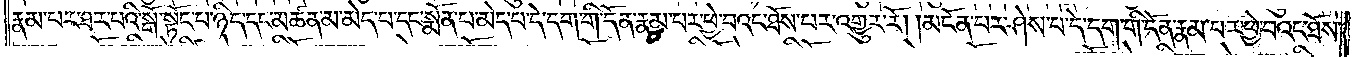རྣམ་པར་ཐར་པའི་སྒོ་སྟོང་པ་ཉིད་དང་མཚན་མ་མེད་པ་དང་སྨོན་པ་མེད་པ་དེ་དག་གི་དོན་རྣམ་པར་ཕྱེ་བའང་ཐོས་པར་འགྱུར་རོ། །མངོན་པར་ཤེས་པ་དེ་དག་གི་དོན་རྣམ་པར་ཕྱེ་བའང་ཐོས་
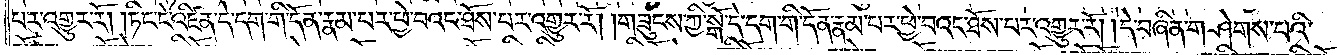པར་འགྱུར་རོ། །ཏིང་ངེ་འཛིན་དེ་དག་གི་དོན་རྣམ་པར་ཕྱེ་བའང་ཐོས་པར་འགྱུར་རོ། །གཟུངས་ཀྱི་སྒོ་དེ་དག་གི་དོན་རྣམ་པར་ཕྱེ་བའང་ཐོས་པར་འགྱུར་རོ། །དེ་བཞིན་གཤེགས་པའི་
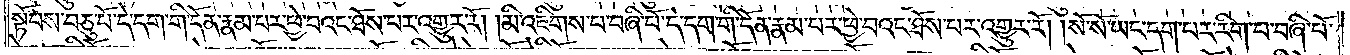སྟོབས་བཅུ་པོ་དེ་དག་གི་དོན་རྣམ་པར་ཕྱེ་བའང་ཐོས་པར་འགྱུར་རོ། །མི་འཇིགས་པ་བཞི་པོ་དེ་དག་གི་དོན་རྣམ་པར་ཕྱེ་བའང་ཐོས་པར་འགྱུར་རོ། །སོ་སོ་ཡང་དག་པར་རིག་པ་བཞི་པོ་
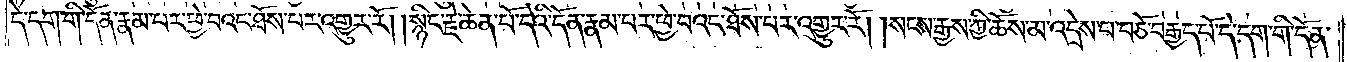དེ་དག་གི་དོན་རྣམ་པར་ཕྱེ་བའང་ཐོས་པར་འགྱུར་རོ། །སྙིང་རྗེ་ཆེན་པོ་དེའི་དོན་རྣམ་པར་ཕྱེ་བའང་ཐོས་པར་འགྱུར་རོ། །སངས་རྒྱས་ཀྱི་ཆོས་མ་འདྲེས་པ་བཅོ་བརྒྱད་པོ་དེ་དག་གི་དོན་
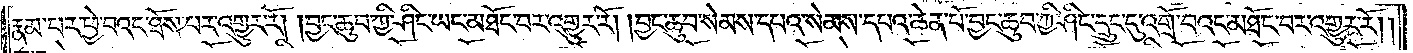རྣམ་པར་ཕྱེ་བའང་ཐོས་པར་འགྱུར་རོ། །བྱང་ཆུབ་ཀྱི་ཤིང་ཡང་མཐོང་བར་འགྱུར་རོ། །བྱང་ཆུབ་སེམས་དཔའ་སེམས་དཔའ་ཆེན་པོ་བྱང་ཆུབ་ཀྱི་ཤིང་དྲུང་དུ་འགྲོ་བའང་མཐོང་བར་འགྱུར་རོ། །
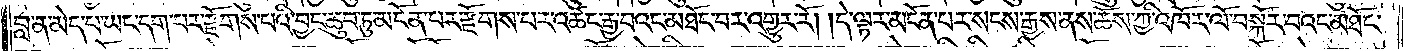བླ་ན་མེད་པ་ཡང་དག་པར་རྫོགས་པའི་བྱང་ཆུབ་ཏུ་མངོན་པར་རྫོགས་པར་འཚང་རྒྱ་བའང་མཐོང་བར་འགྱུར་རོ། །དེ་ལྟར་མངོན་པར་སངས་རྒྱས་ནས་ཆོས་ཀྱི་འཁོར་ལོ་བསྐོར་བའང་མཐོང་
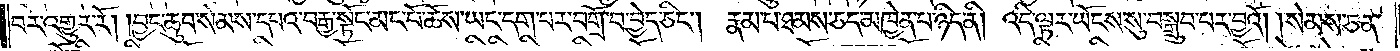བར་འགྱུར་རོ། །བྱང་ཆུབ་སེམས་དཔའ་བརྒྱ་སྟོང་མང་པོ་ཆོས་ཡང་དག་པར་བགྲོ་བར་བྱེད་ཅིང༌། རྣམ་པ་ཐམས་ཅད་མཁྱེན་པ་ཉིད་ནི་འདི་ལྟར་ཡོངས་སུ་བསྒྲུབ་པར་བྱའོ། །སེམས་ཅན་
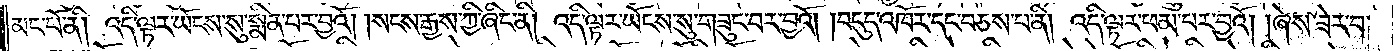མང་པོ་ནི། འདི་ལྟར་ཡོངས་སུ་སྨིན་པར་བྱའོ། སངས་རྒྱས་ཀྱི་ཞིང་ནི། འདི་ལྟར་ཡོངས་སུ་བཟུང་བར་བྱའོ། །བདུད་འཁོར་དང་བཅས་པ་ནི། འདི་ལྟར་ཕམ་པར་བྱའོ། །ཞེས་ཟེར་བ་
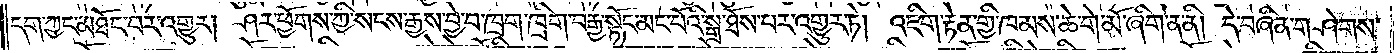དག་ཀྱང་མཐོང་བར་འགྱུར། ཤར་ཕྱོགས་ཀྱི་སངས་རྒྱས་བྱེ་བ་ཁྲག་ཁྲིག་བརྒྱ་སྟོང་མང་པོའི་སྒྲ་ཐོས་པར་འགྱུར་ཏེ། འཇིག་རྟེན་གྱི་ཁམས་ཆེ་གེ་མོ་ཞིག་ན་ནི། དེ་བཞིན་གཤེགས་
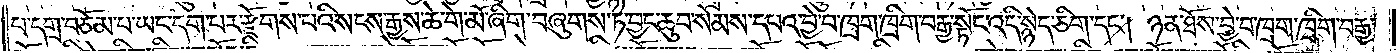པ་དགྲ་བཅོམ་པ་ཡང་དག་པར་རྫོགས་པའི་སངས་རྒྱས་ཆེ་གེ་མོ་ཞིག་བཞུགས་ཏེ་བྱང་ཆུབ་སེམས་དཔའ་བྱེ་བ་ཁྲག་ཁྲིག་བརྒྱ་སྟོང་འདི་སྙེད་ཅིག་དང༌། ཉན་ཐོས་བྱེ་བ་ཁྲག་ཁྲིག་བརྒྱ་
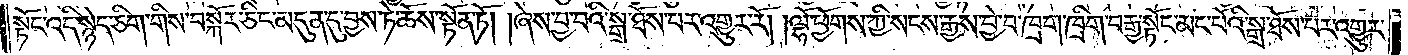སྟོང་འདི་སྙེད་ཅིག་གིས་བསྐོར་ཅིང་མདུན་དུ་བྱས་ཏེ་ཆོས་སྟོན་ཏོ། །ཞེས་བྱ་བའི་སྒྲ་ཐོས་པར་འགྱུར་རོ། །ལྷོ་ཕྱོགས་ཀྱི་སངས་རྒྱས་བྱེ་བ་ཁྲག་ཁྲིག་བརྒྱ་སྟོང་མང་པོའི་སྒྲ་ཐོས་པར་འགྱུར་
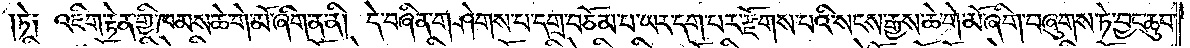ཏེ༑ འཇིག་རྟེན་གྱི་ཁམས་ཆེ་གེ་མོ་ཞིག་ན་ནི། དེ་བཞིན་གཤེགས་པ་དགྲ་བཅོམ་པ་ཡང་དག་པར་རྫོགས་པའི་སངས་རྒྱས་ཆེ་གེ་མོ་ཞིག་བཞུགས་ཏེ་བྱང་ཆུབ་
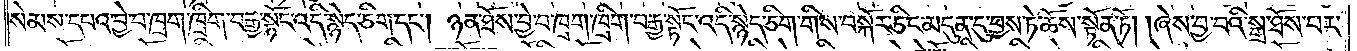སེམས་དཔའ་བྱེ་བ་ཁྲག་ཁྲིག་བརྒྱ་སྟོང་འདི་སྙེད་ཅིག་དང༌། ཉན་ཐོས་བྱེ་བ་ཁྲག་ཁྲིག་བརྒྱ་སྟོང་འདི་སྙེད་ཅིག་གིས་བསྐོར་ཅིང་མདུན་དུ་བྱས་ཏེ་ཆོས་སྟོན་ཏོ། །ཞེས་བྱ་བའི་སྒྲ་ཐོས་པར་
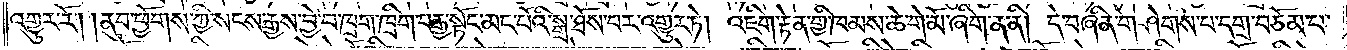འགྱུར་རོ། །ནུབ་ཕྱོགས་ཀྱི་སངས་རྒྱས་བྱེ་བ་ཁྲག་ཁྲིག་བརྒྱ་སྟོང་མང་པོའི་སྒྲ་ཐོས་པར་འགྱུར་ཏེ། འཇིག་རྟེན་གྱི་ཁམས་ཆེ་གེ་མོ་ཞིག་ན་ནི། དེ་བཞིན་གཤེགས་པ་དགྲ་བཅོམ་པ་
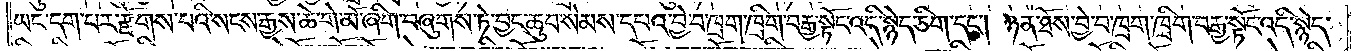ཡང་དག་པར་རྫོགས་པའི་སངས་རྒྱས་ཆེ་གེ་མོ་ཞིག་བཞུགས་ཏེ་བྱང་ཆུབ་སེམས་དཔའ་བྱེ་བ་ཁྲག་ཁྲིག་བརྒྱ་སྟོང་འདི་སྙེད་ཅིག་དང༌། ཉན་ཐོས་བྱེ་བ་ཁྲག་ཁྲིག་བརྒྱ་སྟོང་འདི་སྙེད་
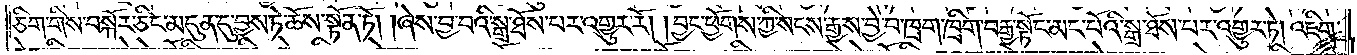ཅིག་གིས་བསྐོར་ཅིང་མདུན་དུ་བྱས་ཏེ་ཆོས་སྟོན་ཏོ། །ཞེས་བྱ་བའི་སྒྲ་ཐོས་པར་འགྱུར་རོ། །བྱང་ཕྱོགས་ཀྱི་སངས་རྒྱས་བྱེ་བ་ཁྲག་ཁྲིག་བརྒྱ་སྟོང་མང་པོའི་སྒྲ་ཐོས་པར་འགྱུར་ཏེ། འཇིག་
